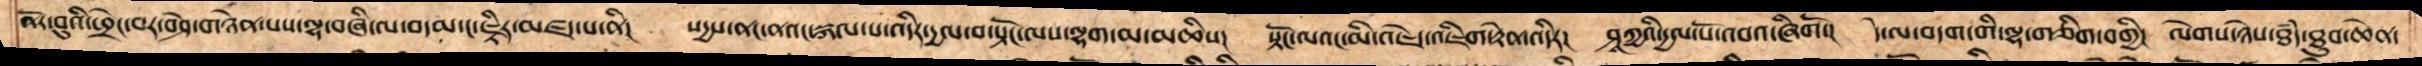ནོར་བུའི་ཕྲེང་བར་བཤེ་གཉེན་པས་ལྷ་བཞི་ལ་བདམ་ང་ཇྟིར་མཛད་པ་ནི། སདྱས་ནང་ནའང་སྐལ་པ་འདིར་དྱལ་བ་སྟོང་ལས་ལྷག་མ་མཆིས། སྟོང་ལའང་མི་མཇེད་འཇིག་རྟེན་འདིར། ཤཱཀྱའི་རྒྱལ་པོ་འབའ་ཞིགོ་།  དེ་ལ་བདག་གི་ལྷ་གཅིག་བགྱི། ལེགས་ཉེས་ཐཾད་ཐུབ་ཆེན་
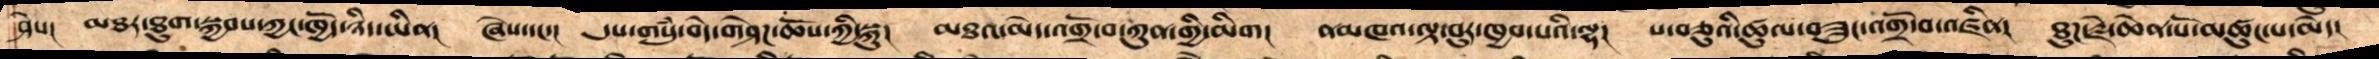ཤེས། མཐར་ཐུག་སྐྱབས་ཀྱང་ཁྱོད་ཉིད་ཡིན། ཞེས་དང་།  དུས་གསུྃ་བདེ་གཤེཌ་ཆོས་ཀྱི་སྐུ། མཐའ་མེད་འགྲོ་བ་ཀུན་གྱི་མིག།    ནམམཁའ་ལྟ་བུར་ཁྱབ་པའི་ལྷ། ས་བཅུའི་ཚུལ་བཟུང་འགྲོ་བ་འཛིན། ཐུཌ་རྗེ་ཆེན་པོ་མཚུང་པ་མེད།
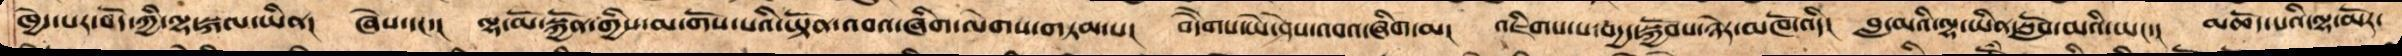ཁྱེད་པར་བོད་ཀྱི་ལྷ་སྐལ་ཡིན། ཞེས་དང་། ལྷ་མོ་སྐྱོན་གྱིས་མ་གོས་པའི་ཡྟོན་འབའ་ཞིག་ལེགས་གཏམ་པ། བདཻགས་ཡེ་ཤེས་འབའ་ཞིག་མ། འཇིགས་པ་བདྱད་སྐྱོབས་ཉེར་མཁོ་འདི།  བླ་མའི་ལྷ་ཡིན་སློབ་མའི་ཡང་།  མཆོད་པའི་ལྷ་མོར་
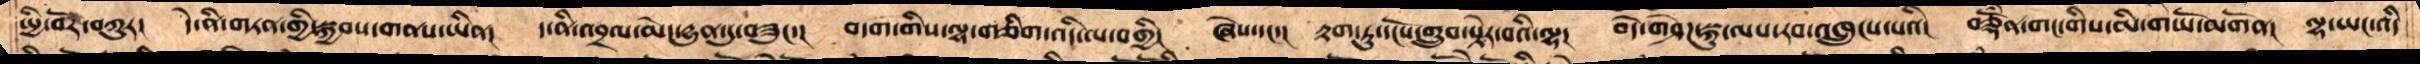སྤྱི་བོར་བཀུར།  དེ་ནི་གཏན་གྱི་སྐྱབས་གནས་ཡིན།  ད་ནི་འབྲལ་མེད་དྱུན་དུ་གཟུང་།   བདག་གིས་ལྷ་གཅིག་འདི་ལ་བགྱི།  ཞེས་པ་དང་།  རྟག་ཏུ་དངོས་གྲུབ་སྟེར་བའི་ལྷ།   བདེ་གཤེཌ་སྐུ་ལས་རབ་འཁྲུངས་པའི།  བཅྡོཾན་གང་གིས་མི་གཡོ་མགོན། ལྷ་ཡང་འདི
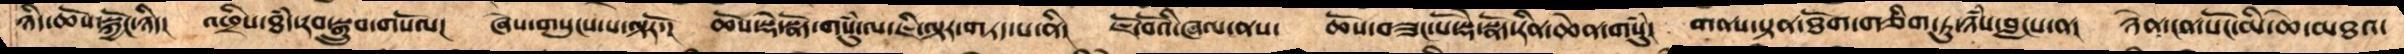ཉིད་ཆོས་སྐྱོང་ཉིད།  འཕྲིས་ཐྃད་རབ་སྒྲུབ་གསོལ།  ཞེས་གསུངས་པ་ལྟརོ་།  ཆོས་སྡེ་སྣོད་གསུྃ་ལ་ཇི་ལྟར་གཏད་པ་ནི།  ཇོ་བོའི་ཞལ་ནས།  ཆོས་བཟང་པོ་སྡེ་སྣོད་རིན་ཆེན་གསུྃ།  གནས་སྟན་ཐོག་གཅིག་ཏུ་ཉྃས་བླངས་ན།  ཉེན་ངན་སོང་མི་ཆེ་མཐའ་
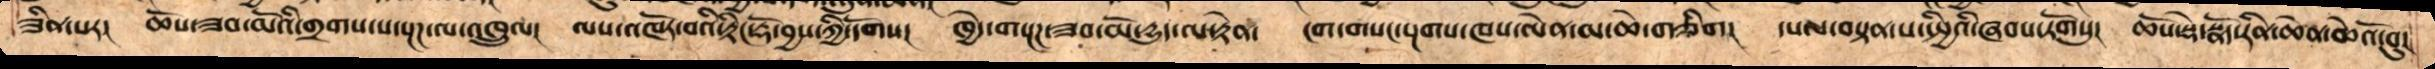ཟིན་པར།    ཆོས་ཟབ་མོའི་གྲགས་པ་སྔཌ་ལ་འཁྲུལ།   ལས་འཁོར་བའི་རྟིང་རྡོ་བྱས་ཀྱི་དོགས།   ཁྱེད་གསྔཌ་ཟབ་མོ་དྱུད་ལ་སྟེན།   ངག་གསང་སྔགས་ཁས་ལེན་མ་ཆེ་གཅིག།   དཔལ་བསྟན་པ་སྤྱིའི་ཞབས་རོགསུ།  ཆོས་སྡེ་སྣོད་རིན་ཆེན་ཆེའོ་བུ།
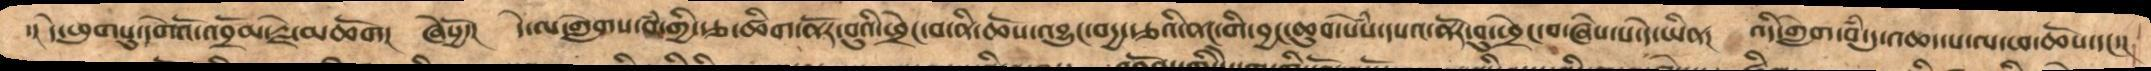་།  དེ་ཕུགསུ་དགེའོ་འབྲོམ་རྗེ་མཆོག།   ཞེསྱོ་།  དེ་ལ་གླེགས་བཾ་གྱི་རྩ་ཚིག་ནོར་བུའི་འཕྲེང་བ་ནི་ཆོས་འབྱུང་བདྱ་རྩའི་ནང་གི་བྱང་ཆུབ་སེཾས་དཔའ་ནོར་བུའི་ཕྲེང་བ་ཞེས་པ་དེ་ཡིན།  འདི་གླེག་བཾ་དུ་འཆད་པ་ལ་ཕ་ཆོས་དང་།
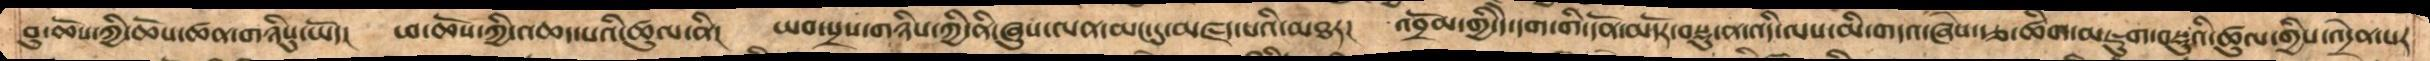བུ་ཆོས་ཀྱི་ཆོས་ཚན་གཉིསུ་ཡོད།   ཕ་ཆོས་ཀྱིས་འཆད་པའི་ཚུལ་ནི།   ཡབ་སྲས་གཉིས་ཀྱི་ནི་ཞུས་ལན་མང་དུ་མཛད་པའི་མཐར།    འབྲོམ་གྱི་དེ་དག་གི་དོན་མདོར་བསྡུ་ན་འདི་ལས་མི་གདའ་ཞེས་རྩ་ཚིག་མཇུག་བསྡུའི་ཚུལ་གྱིས་འདྲེན་པར
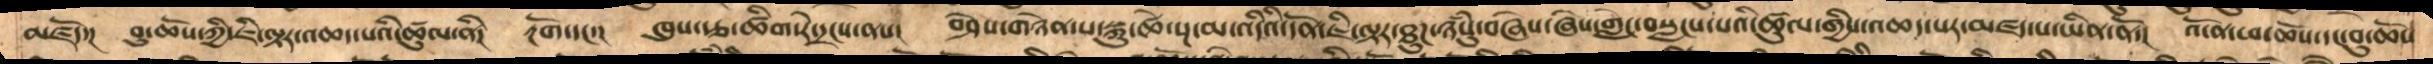མཛདོ་།   བུ་ཆོས་ཀྱི་ཇི་ལྟར་འཆད་པའི་ཚུལ་ནི།  རྔོག་དང་།   ཁུས་རྩ་ཚིག་རེ་དྲངས་ནས།   བཤེས་གཉེན་པ་སྐུ་ཚེ་སྔ་མ་འདིའི་དོན་ཇི་ལྟར་ཐུཌ་ཉཾསུ་་བཞེས་ཞེས་གླེང་བསླངས་པའི་ཚུལ་གྱིས་འཆད་པར་མཛད་པ་ཡིན་ནོ་།   འོ་ན་ཕ་ཆོས་དང་བུ་ཆོས
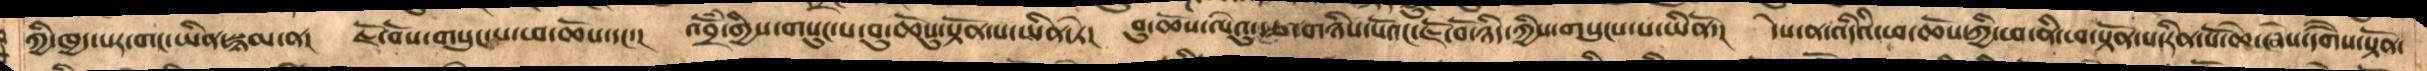ཀྱི་ཁྱད་པར་གང་ཡིན་སྙམ་ན།   ཇོ་བོས་གསུངས་པ་ཕ་ཆོས་དང་།   འབྲོཾ་གྱིས་གསུངས་པ་བུ་ཆོསུ་སྟོན་པ་ཡིན་ཏེ།  བུ་ཆོས་ལེའུ་རྩ་གཉིས་པོའང་ཇོ་བོ་ཉིད་ཀྱིས་གསུངས་པ་ཡིནོ་།   དེས་ན་འདིའི་ཕ་ཆོས་ཀྱི་ཕ་ནི་ཕ་སྟོན་པ་རིན་པོ་ཆེ་ཞེས་དགཻས་སྟོན་
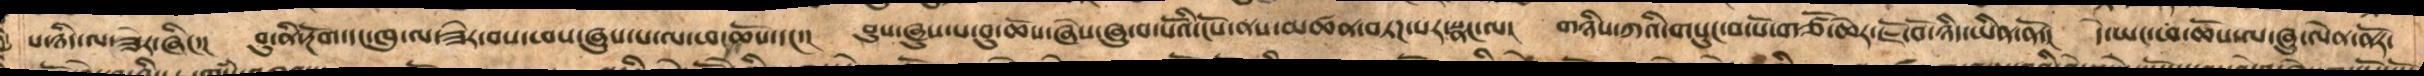པ་ཉིད་ལ་ཟེར་ཞིང་ང     བུ་ནི་རྔོག་དང་ཁུ་ལ་ཟེར་བས་ཕས་ཞུས་པ་ལ་ཕ་ཆོས་དང་།   བུས་ཞུས་པ་ལ་བུ་ཆོས་ཞེས་ཞུ་པ་པོའི་ངོས་ནས་མཚན་བཏཌ་པར་སྣང་ལ།   གཉིས་ཀའི་གསུང་བ་པོ་གཙོ་ཆེར་ཇོ་བོ་ཉིད་ཡིན་ནོ་།  དེ་ཡང་ཕ་ཆོས་ལ་ཞུ་ལེན་ནོར་
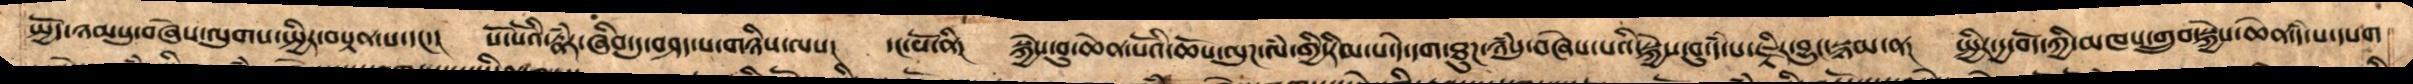སྤྱོད་ཉམསུ་བཞེས་ལུགས་སྤྱིར་བསྟན་པ་དང་།   སོ་སོའི་རྣཾར་ཞིབ་དུ་བཤད་པ་གཉིས་ལས།   དང་པོ་ནི།  སྐྱེས་བུ་ཆེན་པོའི་ཆོས་ལུཌ་ལཾ་གྱི་རིམ་པ་དེ་དག་ཐུཌ་ཉཾསུ་བཞེས་པའི་སྐྱེས་བུ་དཾ་པ་ཇྟིར་བྱུང་སྙམ་ན།  སྤྱིར་དྱ་བོད་ཀྱི་མཁས་གྲུབ་སྐྱེས་ཆེན་དཾ་པ་དཔག
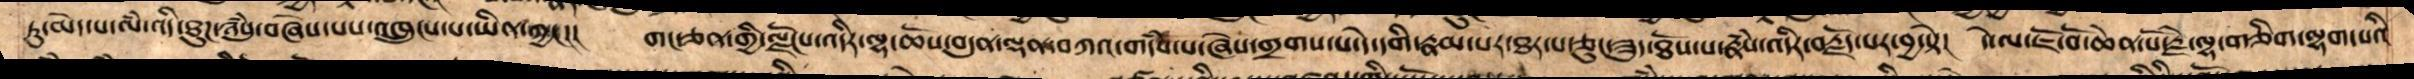ཏུ་མེད་པ་ལཾ་འདི་ཐུཌ་ཉཾསུ་བཞེས་པས་འཁྲུངས་པ་ཡིན་ཀྱང་།   གང་ཅན་གྱི་ལྗོངས་འདིར་ལྷ་ཆོས་བདུན་ལྡན་བཀའ་གདཾས་པ་ཞེས་གྲགས་པ་དེ་དགི་རྣམ་པར་ཐར་པ་ཅུང་ཟུད་ཐོས་པ་རྣཾས་འདིར་བརྗོད་པར་བྱ་སྟེ།   དེ་ལ་ཇོ་བོ་ཆེན་པོ་ལྷ་གཅིག་ལྷག་པའི
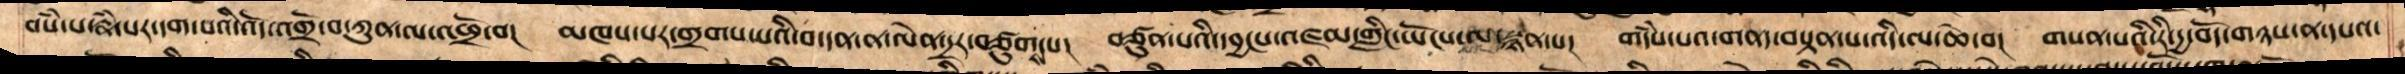བསཾ་པ་རྣཾ་པར་དག་པའི་འོད་འགྲོ་བ་ཀུན་ལ་འཕྲོ་བ།  མཁས་པར་གྲགས་པའི་བ་དན་ན་ལེན་དྲར་བཙུགས་པ། བཙུན་པའི་དབྱངས་འཛམ་གླིང་ཡོངས་ལ་སྙན་པ། གདཾས་པའ་གནད་བསྟན་པ་འདི་ལ་ཆེ་བ།  གསན་པའི་རི་དྱ་བོད་གཉས་ན་དཔའ་
